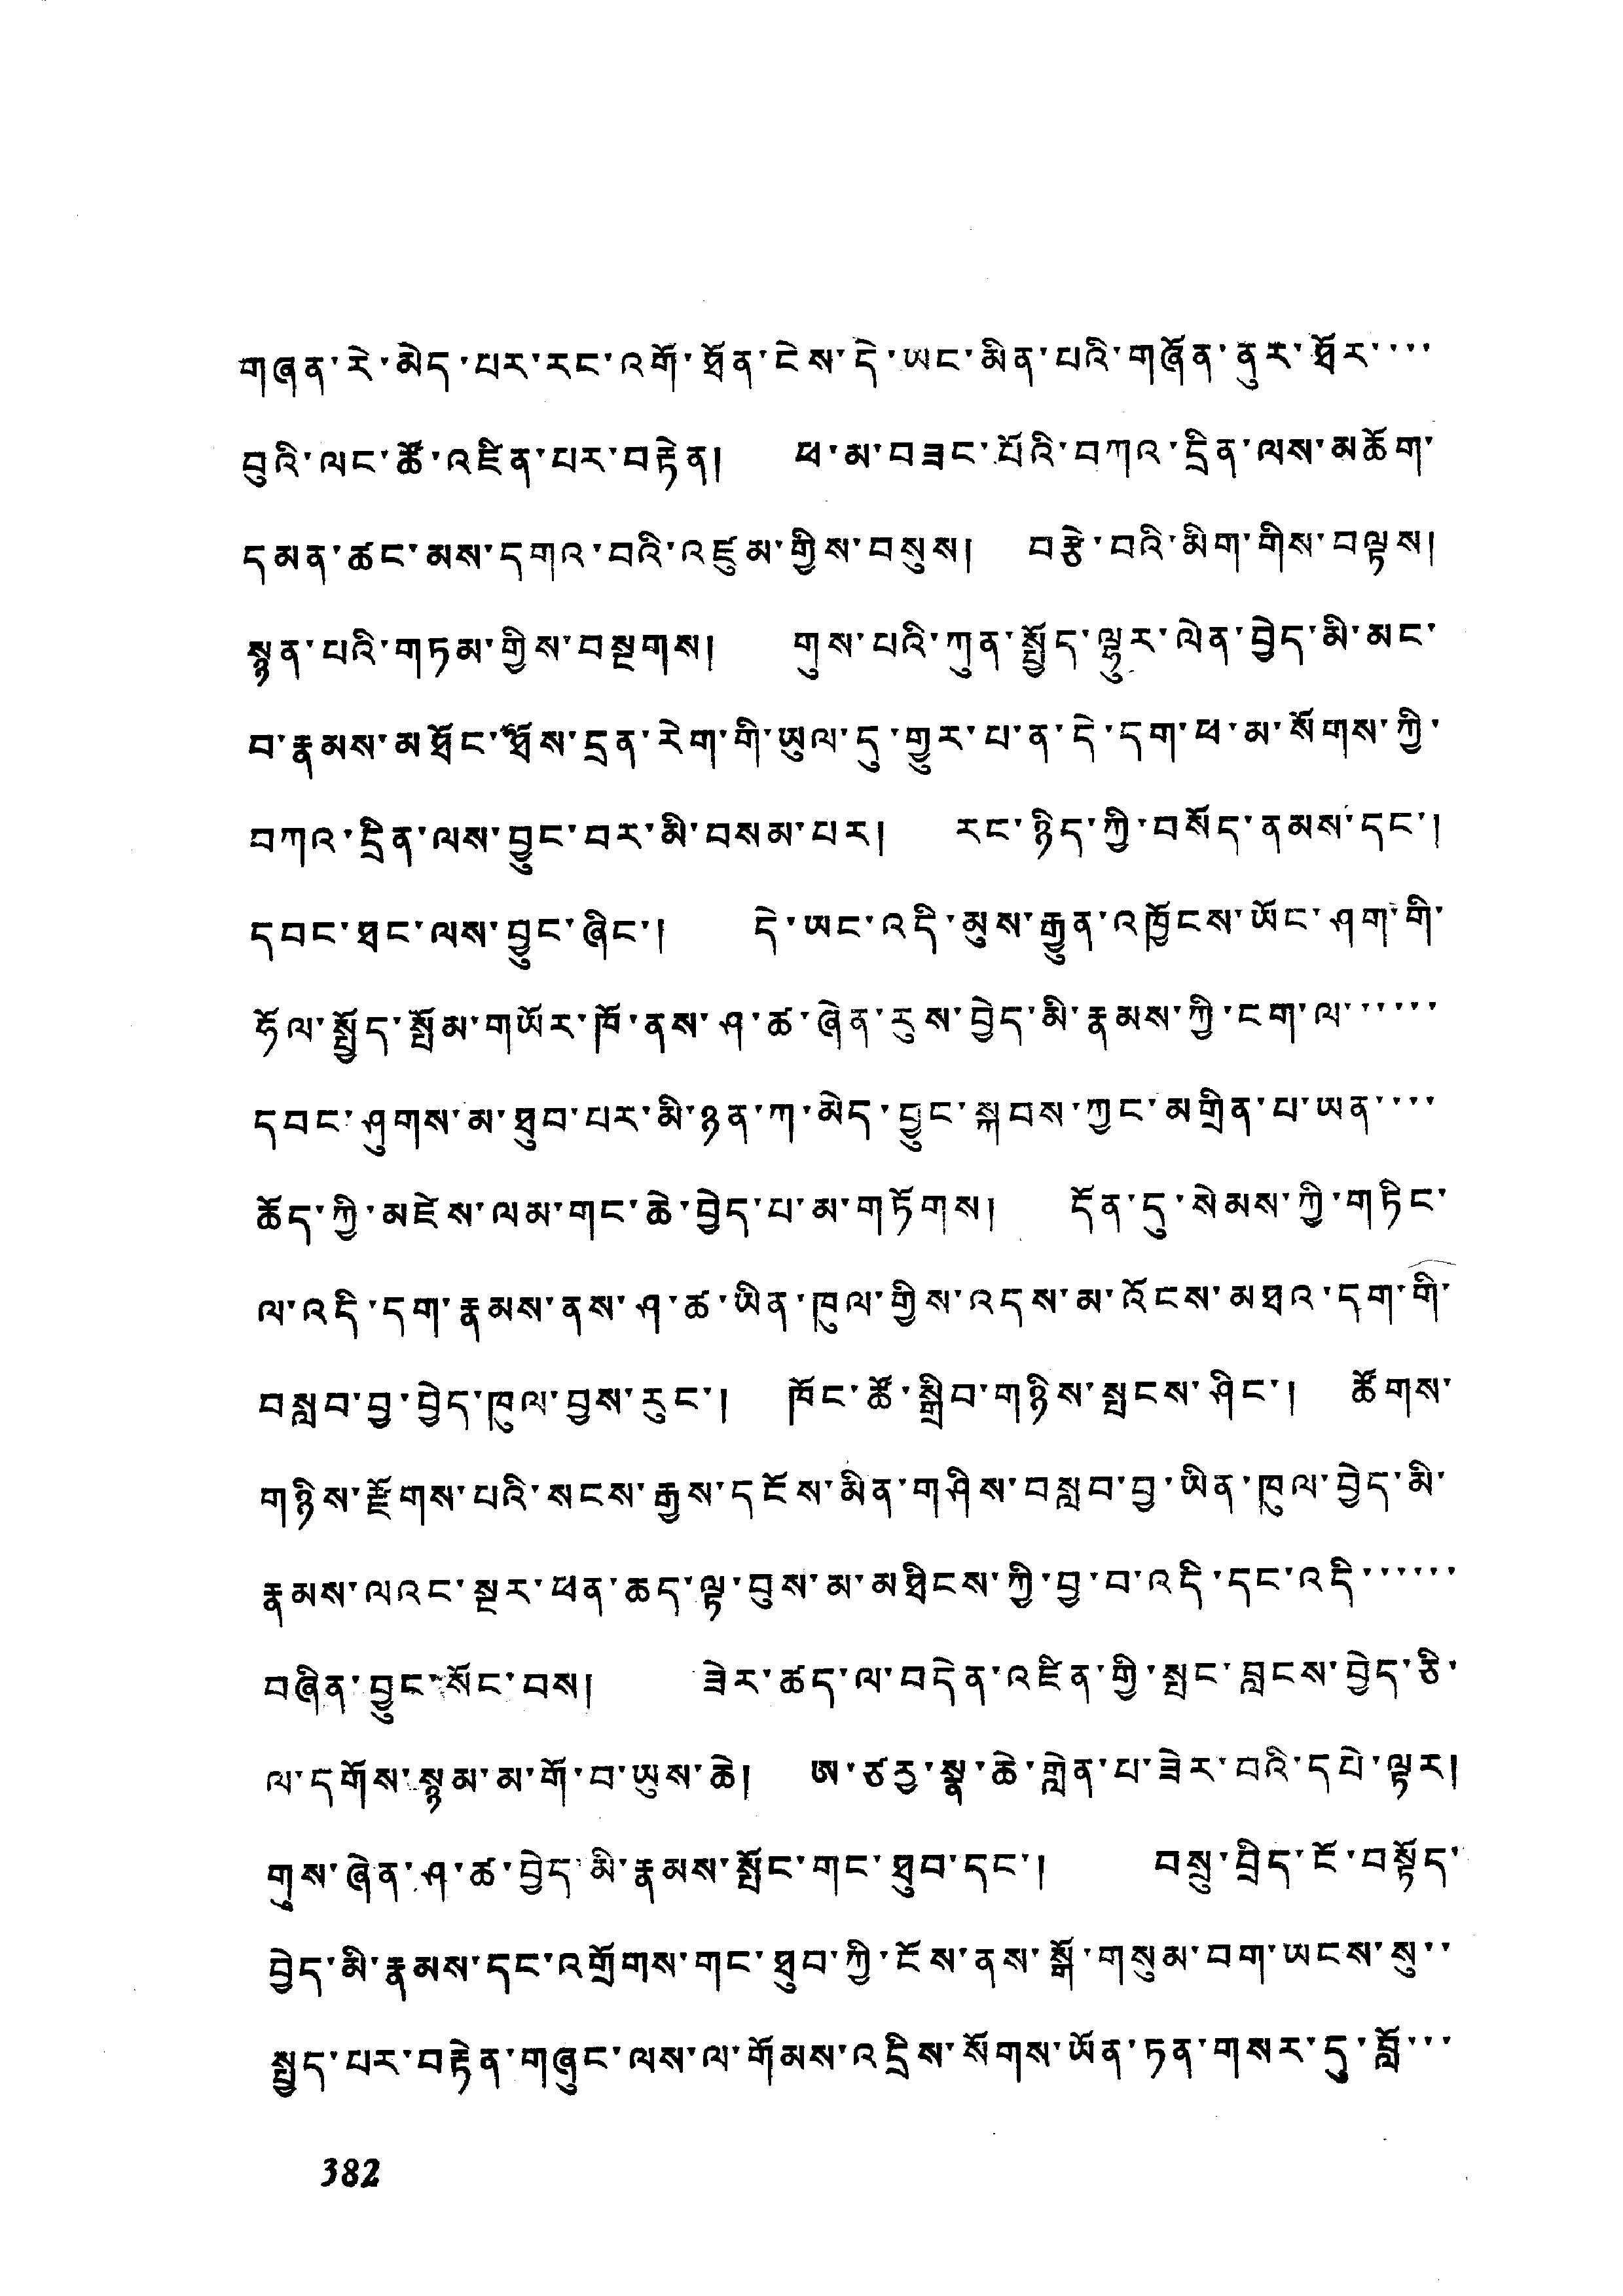གཞན་རེ་མེད་པར་རང་འགོ་ཐོན་ངེས་དེ་ཡང་མིན་པའི་གཞོན་ནུར་ཐོར་་་་
བུའི་ལང་ཚོ་འཛིན་པར་བརྟེན། ཕ་མ་བཟང་པོའི་བཀའ་དྲིན་ལས་མཆོག་
དམན་ཚང་མས་དགའ་བའི་འཛུམ་གྱིས་བསུས། བརྩེ་བའི་མིག་གིས་བལྟས།
སྙན་པའི་གཏམ་གྱིས་བསྔགས། གུས་པའི་ཀུན་སྤྱོད་ལྷུར་ལེན་བྱེད་མི་མང་
བ་རྣམས་མཐོང་ཐོས་དྲན་རེག་གི་ཡུལ་དུ་གྱུར་པ་ན་དེ་དག་ཕ་མ་སོགས་ཀྱི་
བཀའ་དྲིན་ལས་བྱུང་བར་མི་བསམ་པར། རང་ཉིད་ཀྱི་བསོད་ནམས་དང་།
དབང་ཐང་ལས་བྱུང་ཞིང་། དེ་ཡང་འདི་མུས་རྒྱུན་འཁྱོངས་ཡོང་ཤག་གི་
ཧོལ་སྤྱོད་སྤོམ་གཡོར་ཁོ་ནས་ཤ་ཚ་ཞེན་རུས་བྱེད་མི་རྣམས་ཀྱི་ངག་ལ་་་་་་
དབང་ཤུགས་མ་ཐུབ་པར་མི་ཉན་ཀ་མེད་བྱུང་སྐབས་ཀྱང་མགྲིན་པ་ཡན་་་་
ཆོད་ཀྱི་མཛེས་ལམ་གང་ཆེ་བྱེད་པ་མ་གཏོགས། དོན་དུ་སེམས་ཀྱི་གཏིང་
ལ་འདི་དག་རྣམས་ནས་ཤ་ཚ་ཡིན་ཁུལ་གྱིས་འདས་མ་འོངས་མཐའ་དག་གི་
བསླབ་བྱ་བྱེད་ཁུལ་བྱས་རུང་། ཁོང་ཚོ་སྒྲིབ་གཉིས་སྤངས་ཤིང་། ཚོགས་
གཉིས་རྫོགས་པའི་སངས་རྒྱས་དངོས་མིན་གཤིས་བསླབ་བྱ་ཡིན་ཁུལ་བྱེད་མི་
རྣམས་ལའང་སྔར་ཕན་ཆད་ལྟ་བུས་མ་མཐིངས་ཀྱི་བྱ་བ་འདི་དང་འདི་་་་་་
བཞིན་བྱུང་སོང་བས། ཟེར་ཚད་ལ་བདེན་འཛིན་གྱི་སྤང་བླངས་བྱེད་ཅི་
ལ་དགོས་སྙམ་མ་གོ་བ་ཡུས་ཆེ། ཨ་ཙརྱ་སྣ་ཆེ་གླེན་པ་ཟེར་བའི་དཔེ་ལྟར།
གུས་ཞེན་ཤ་ཚ་བྱེད་མི་རྣམས་སྤོང་གང་ཐུབ་དང་། བསྲུ་བྲིད་ངོ་བསྟོད་
བྱེད་མི་རྣམས་དང་འགྲོགས་གང་ཐུབ་ཀྱི་ངོས་ནས་སྒོ་གསུམ་བག་ཡངས་སུ་་
སྤྱད་པར་བརྟེན་གཞུང་ལས་ལ་གོམས་འདྲིས་སོགས་ཡོན་ཏན་གསར་དུ་བློ་་་
382
